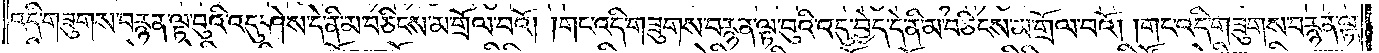འདི་གཟུགས་བརྙན་ལྟ་བུའི་འདུ་ཤེས་དེ་ནི་མ་བཅིངས་མ་གྲོལ་བའོ། །གང་འདི་གཟུགས་བརྙན་ལྟ་བུའི་འདུ་བྱེད་དེ་ནི་མ་བཅིངས་མ་གྲོལ་བའོ། །གང་འདི་གཟུགས་བརྙན་ལྟ་
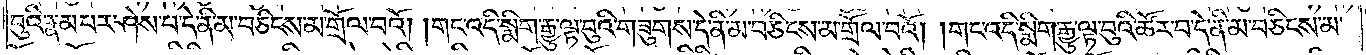བུའི་རྣམ་པར་ཤེས་པ་དེ་ནི་མ་བཅིངས་མ་གྲོལ་བའོ། །གང་འདི་སྨིག་རྒྱུ་ལྟ་བུའི་གཟུགས་དེ་ནི་མ་བཅིངས་མ་གྲོལ་བའོ། །གང་འདི་སྨིག་རྒྱུ་ལྟ་བུའི་ཚོར་བ་དེ་ནི་མ་བཅིངས་མ་
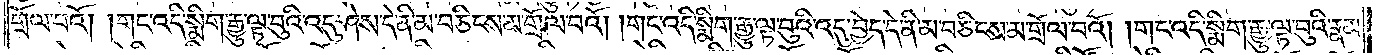གྲོལ་བའོ། །གང་འདི་སྨིག་རྒྱུ་ལྟ་བུའི་འདུ་ཤེས་དེ་ནི་མ་བཅིངས་མ་གྲོལ་བའོ། །གང་འདི་སྨིག་རྒྱུ་ལྟ་བུའི་འདུ་བྱེད་དེ་ནི་མ་བཅིངས་མ་གྲོལ་བའོ། །གང་འདི་སྨིག་རྒྱུ་ལྟ་བུའི་རྣམ་
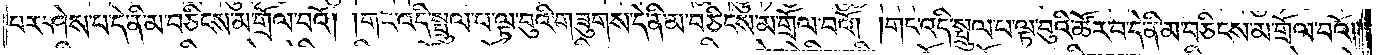པར་ཤེས་པ་དེ་ནི་མ་བཅིངས་མ་གྲོལ་བའོ། །གང་འདི་སྤྲུལ་པ་ལྟ་བུའི་གཟུགས་དེ་ནི་མ་བཅིངས་མ་གྲོལ་བའོ། །གང་འདི་སྤྲུལ་པ་ལྟ་བུའི་ཚོར་བ་དེ་ནི་མ་བཅིངས་མ་གྲོལ་བའོ། །
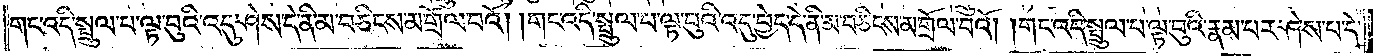གང་འདི་སྤྲུལ་པ་ལྟ་བུའི་འདུ་ཤེས་དེ་ནི་མ་བཅིངས་མ་གྲོལ་བའོ། །གང་འདི་སྤྲུལ་པ་ལྟ་བུའི་འདུ་བྱེད་དེ་ནི་མ་བཅིངས་མ་གྲོལ་བའོ། །གང་འདི་སྤྲུལ་པ་ལྟ་བུའི་རྣམ་པར་ཤེས་པ་དེ་
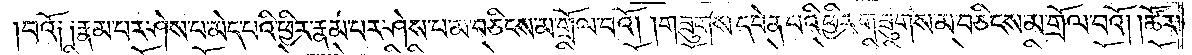བའོ། །རྣམ་པར་ཤེས་པ་མེད་པའི་ཕྱིར་རྣམ་པར་ཤེས་པ་མ་བཅིངས་མ་གྲོལ་བའོ། །གཟུགས་དབེན་པའི་ཕྱིར་གཟུགས་མ་བཅིངས་མ་གྲོལ་བའོ། །ཚོར་
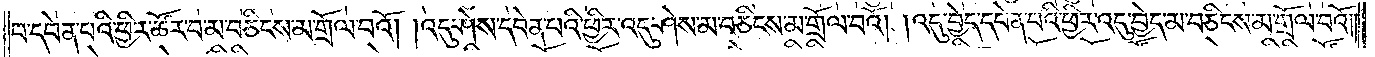བ་དབེན་པའི་ཕྱིར་ཚོར་བ་མ་བཅིངས་མ་གྲོལ་བའོ། །འདུ་ཤེས་དབེན་པའི་ཕྱིར་འདུ་ཤེས་མ་བཅིངས་མ་གྲོལ་བའོ། །འདུ་བྱེད་དབེན་པའི་ཕྱིར་འདུ་བྱེད་མ་བཅིངས་མ་གྲོལ་བའོ། །
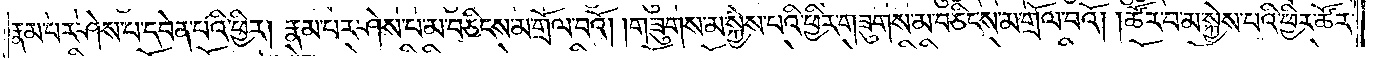རྣམ་པར་ཤེས་པ་དབེན་པའི་ཕྱིར། རྣམ་པར་ཤེས་པ་མ་བཅིངས་མ་གྲོལ་བའོ། །གཟུགས་མ་སྐྱེས་པའི་ཕྱིར་གཟུགས་མ་བཅིངས་མ་གྲོལ་བའོ། །ཚོར་བ་མ་སྐྱེས་པའི་ཕྱིར་ཚོར་
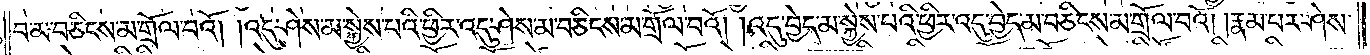བ་མ་བཅིངས་མ་གྲོལ་བའོ། །འདུ་ཤེས་མ་སྐྱེས་པའི་ཕྱིར་འདུ་ཤེས་མ་བཅིངས་མ་གྲོལ་བའོ། །འདུ་བྱེད་མ་སྐྱེས་པའི་ཕྱིར་འདུ་བྱེད་མ་བཅིངས་མ་གྲོལ་བའོ། །རྣམ་པར་ཤེས་
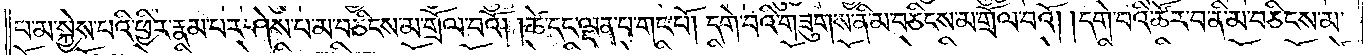པ་མ་སྐྱེས་པའི་ཕྱིར་རྣམ་པར་ཤེས་པ་མ་བཅིངས་མ་གྲོལ་བའོ། །ཚེ་དང་ལྡན་པ་གང་པོ། དགེ་བའི་གཟུགས་ནི་མ་བཅིངས་མ་གྲོལ་བའོ། །དགེ་བའི་ཚོར་བ་ནི་མ་བཅིངས་མ་
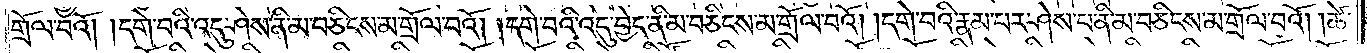གྲོལ་བའོ། །དགེ་བའི་འདུ་ཤེས་ནི་མ་བཅིངས་མ་གྲོལ་བའོ། །དགེ་བའི་འདུ་བྱེད་ནི་མ་བཅིངས་མ་གྲོལ་བའོ། །དགེ་བའི་རྣམ་པར་ཤེས་པ་ནི་མ་བཅིངས་མ་གྲོལ་བའོ། །ཚེ་
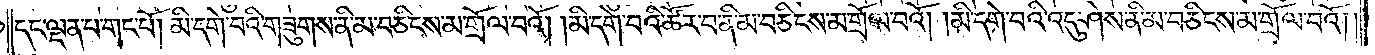དང་ལྡན་པ་གང་པོ། མི་དགེ་བའི་གཟུགས་ནི་མ་བཅིངས་མ་གྲོལ་བའོ། །མི་དགེ་བའི་ཚོར་བ་ནི་མ་བཅིངས་མ་གྲོལ་བའོ། །མི་དགེ་བའི་འདུ་ཤེས་ནི་མ་བཅིངས་མ་གྲོལ་བའོ། །
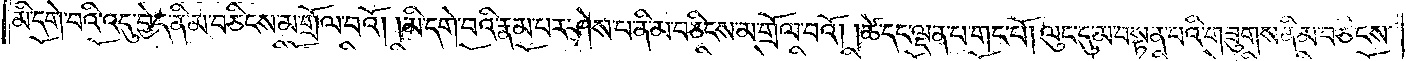མི་དགེ་བའི་འདུ་བྱེད་ནི་མ་བཅིངས་མ་གྲོལ་བའོ། །མི་དགེ་བའི་རྣམ་པར་ཤེས་པ་ནི་མ་བཅིངས་མ་གྲོལ་བའོ། །ཚེ་དང་ལྡན་པ་གང་པོ། ལུང་དུ་མ་བསྟན་པའི་གཟུགས་ནི་མ་བཅིངས།
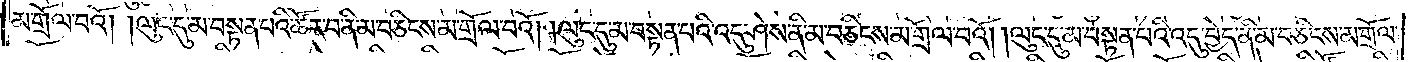མ་གྲོལ་བའོ། །ལུང་དུ་མ་བསྟན་པའི་ཚོར་བ་ནི་མ་བཅིངས་མ་གྲོལ་བའོ། །ལུང་དུ་མ་བསྟན་པའི་འདུ་ཤེས་ནི་མ་བཅིངས་མ་གྲོལ་བའོ། །ལུང་དུ་མ་བསྟན་པའི་འདུ་བྱེད་ནི་མ་བཅིངས་མ་གྲོལ་
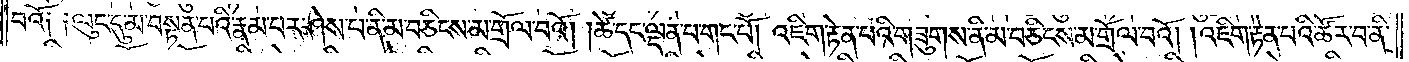བའོ༑ ༑ལུང་དུ་མ་བསྟན་པའི་རྣམ་པར་ཤེས་པ་ནི་མ་བཅིངས་མ་གྲོལ་བའོ། །ཚེ་དང་ལྡན་པ་གང་པོ། འཇིག་རྟེན་པའི་གཟུགས་ནི་མ་བཅིངས་མ་གྲོལ་བའོ། །འཇིག་རྟེན་པའི་ཚོར་བ་ནི་
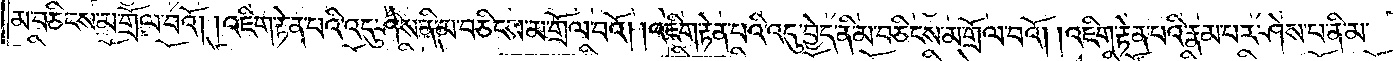མ་བཅིངས་མ་གྲོལ་བའོ། །འཇིག་རྟེན་པའི་འདུ་ཤེས་ནི་མ་བཅིངས་མ་གྲོལ་བའོ། །འཇིག་རྟེན་པའི་འདུ་བྱེད་ནི་མ་བཅིངས་མ་གྲོལ་བའོ། །འཇིག་རྟེན་པའི་རྣམ་པར་ཤེས་པ་ནི་མ་
